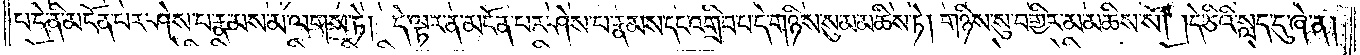པ་དེ་ནི་མངོན་པར་ཤེས་པ་རྣམས་མ་ལགས་ཏེ། དེ་ལྟར་ན་མངོན་པར་ཤེས་པ་རྣམས་དང་འགྲིབ་པ་དེ་གཉིས་སུ་མ་མཆིས་ཏེ། གཉིས་སུ་བགྱིར་མ་མཆིས་སོ། །དེ་ཅིའི་སླད་དུ་ཞེ་ན།
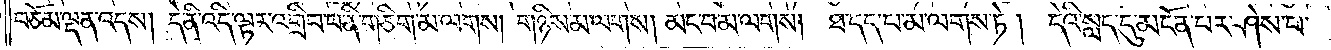བཅོམ་ལྡན་འདས། དེ་ནི་འདི་ལྟར་འགྲིབ་པ་ནི་གཅིག་མ་ལགས། གཉིས་མ་ལགས། མང་བ་མ་ལགས། ཐ་དད་པ་མ་ལགས་ཏེ། དེའི་སླད་དུ་མངོན་པར་ཤེས་པ་
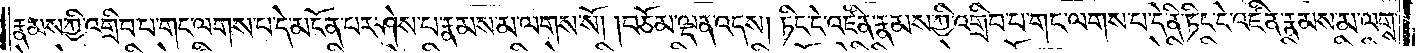རྣམས་ཀྱི་འགྲིབ་པ་གང་ལགས་པ་དེ་མངོན་པར་ཤེས་པ་རྣམས་མ་ལགས་སོ། །བཅོམ་ལྡན་འདས། ཏིང་ངེ་འཛིན་རྣམས་ཀྱི་འགྲིབ་པ་གང་ལགས་པ་དེ་ནི་ཏིང་ངེ་འཛིན་རྣམས་མ་ལགས་
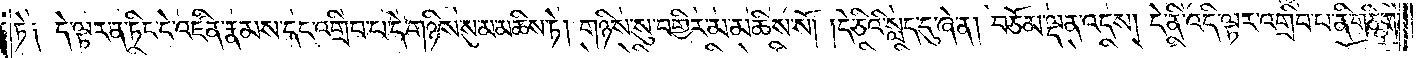ཏེ། དེ་ལྟར་ན་ཏིང་ངེ་འཛིན་རྣམས་དང་འགྲིབ་པ་དེ་གཉིས་སུ་མ་མཆིས་ཏེ། གཉིས་སུ་བགྱིར་མ་མཆིས་སོ། །དེ་ཅིའི་སླད་དུ་ཞེ་ན། བཅོམ་ལྡན་འདས། དེ་ནི་འདི་ལྟར་འགྲིབ་པ་ནི་གཅིག་
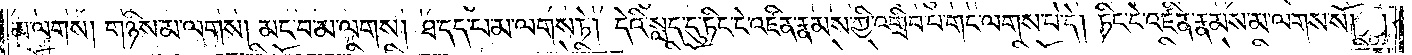མ་ལགས། གཉིས་མ་ལགས། མང་བ་མ་ལགས། ཐ་དད་པ་མ་ལགས་ཏེ། དེའི་སླད་དུ་ཏིང་ངེ་འཛིན་རྣམས་ཀྱི་འགྲིབ་པ་གང་ལགས་པ་དེ། ཏིང་ངེ་འཛིན་རྣམས་མ་ལགས་སོ། །
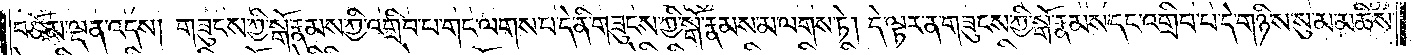བཅོམ་ལྡན་འདས། གཟུངས་ཀྱི་སྒོ་རྣམས་ཀྱི་འགྲིབ་པ་གང་ལགས་པ་དེ་ནི་གཟུངས་ཀྱི་སྒོ་རྣམས་མ་ལགས་ཏེ། དེ་ལྟར་ན་གཟུངས་ཀྱི་སྒོ་རྣམས་དང་འགྲིབ་པ་དེ་གཉིས་སུ་མ་མཆིས་
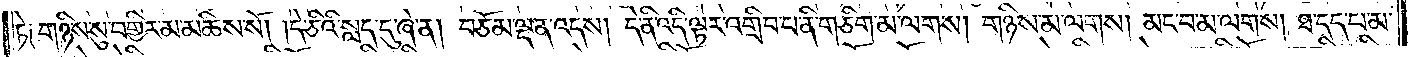ཏེ༑ གཉིས་སུ་བགྱིར་མ་མཆིས་སོ། །དེ་ཅིའི་སླད་དུ་ཞེ་ན། བཅོམ་ལྡན་འདས། དེ་ནི་འདི་ལྟར་འགྲིབ་པ་ནི་གཅིག་མ་ལགས། གཉིས་མ་ལགས། མང་བ་མ་ལགས། ཐ་དད་པ་མ་
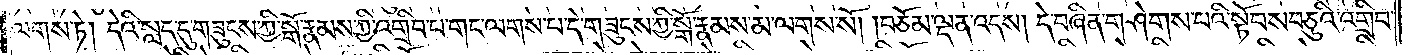ལགས་ཏེ། དེའི་སླད་དུ་གཟུངས་ཀྱི་སྒོ་རྣམས་ཀྱི་འགྲིབ་པ་གང་ལགས་པ་དེ་གཟུངས་ཀྱི་སྒོ་རྣམས་མ་ལགས་སོ། །བཅོམ་ལྡན་འདས། དེ་བཞིན་གཤེགས་པའི་སྟོབས་བཅུའི་འགྲིབ་
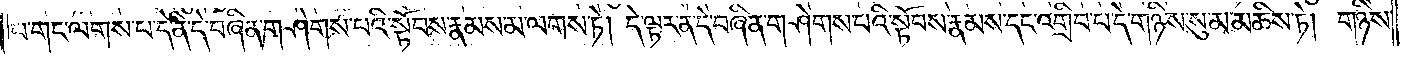པ་གང་ལགས་པ་དེ་ནི་དེ་བཞིན་གཤེགས་པའི་སྟོབས་རྣམས་མ་ལགས་ཏེ། དེ་ལྟར་ན་དེ་བཞིན་གཤེགས་པའི་སྟོབས་རྣམས་དང་འགྲིབ་པ་དེ་གཉིས་སུ་མ་མཆིས་ཏེ། གཉིས་
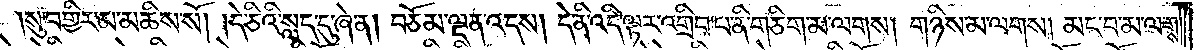སུ་བགྱིར་མ་མཆིས་སོ། །དེ་ཅིའི་སླད་དུ་ཞེ་ན། བཅོམ་ལྡན་འདས། དེ་ནི་འདི་ལྟར་འགྲིབ་པ་ནི་གཅིག་མ་ལགས། གཉིས་མ་ལགས། མང་བ་མ་ལགས།
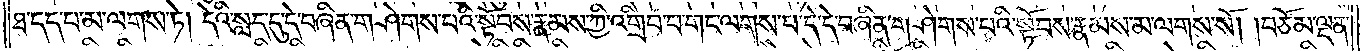ཐ་དད་པ་མ་ལགས་ཏེ། དེའི་སླད་དུ་དེ་བཞིན་གཤེགས་པའི་སྟོབས་རྣམས་ཀྱི་འགྲིབ་པ་གང་ལགས་པ་དེ་དེ་བཞིན་གཤེགས་པའི་སྟོབས་རྣམས་མ་ལགས་སོ། །བཅོམ་ལྡན་
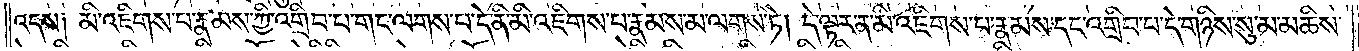འདས། མི་འཇིགས་པ་རྣམས་ཀྱི་འགྲིབ་པ་གང་ལགས་པ་དེ་ནི་མི་འཇིགས་པ་རྣམས་མ་ལགས་ཏེ། དེ་ལྟར་ན་མི་འཇིགས་པ་རྣམས་དང་འགྲིབ་པ་དེ་གཉིས་སུ་མ་མཆིས་
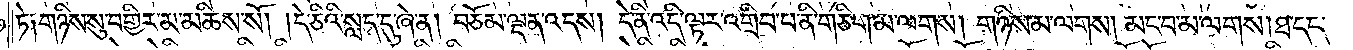ཏེ༑ གཉིས་སུ་བགྱིར་མ་མཆིས་སོ། །དེ་ཅིའི་སླད་དུ་ཞེ་ན། བཅོམ་ལྡན་འདས་དེ་ནི་འདི་ལྟར་འགྲིབ་པ་ནི་གཅིག་མ་ལགས། གཉིས་མ་ལགས། མང་བ་མ་ལགས། ཐ་དད་
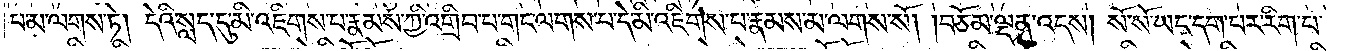པ་མ་ལགས་ཏེ། དེའི་སླད་དུ་མི་འཇིགས་པ་རྣམས་ཀྱི་འགྲིབ་པ་གང་ལགས་པ་དེ་མི་འཇིགས་པ་རྣམས་མ་ལགས་སོ། །བཅོམ་ལྡན་འདས། སོ་སོ་ཡང་དག་པར་རིག་པ་
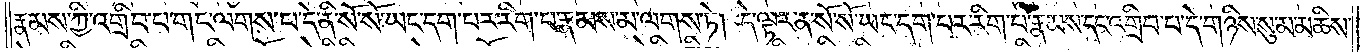རྣམས་ཀྱི་འགྲིབ་པ་གང་ལགས་པ་དེ་ནི་སོ་སོ་ཡང་དག་པར་རིག་པ་རྣམས་མ་ལགས་ཏེ། དེ་ལྟར་ན་སོ་སོ་ཡང་དག་པར་རིག་པ་རྣམས་དང་འགྲིབ་པ་དེ་གཉིས་སུ་མ་མཆིས་
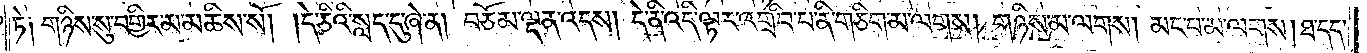ཏེ༑ གཉིས་སུ་བགྱིར་མ་མཆིས་སོ། །དེ་ཅིའི་སླད་དུ་ཞེ་ན། བཅོམ་ལྡན་འདས། དེ་ནི་འདི་ལྟར་འགྲིབ་པ་ནི་གཅིག་མ་ལག། གཉིས་མ་ལགས། མང་བ་མ་ལགས། ཐ་དད་
